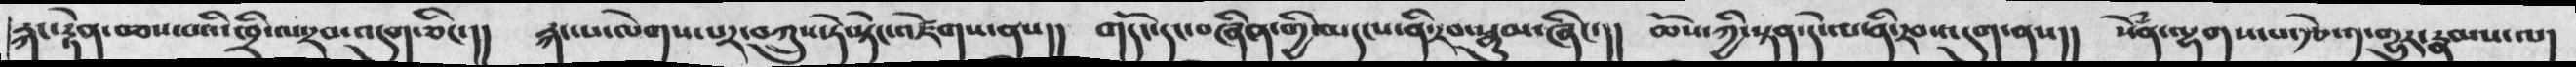རྐང་རྟེན་བཅས་པའི་ཁྲི་ལ་རབ་འདུག་ཅིང་།།   རྐང་པ་ལེགས་པར་བཀྲུས་ཏེ་སྟེང་འཛེགས་ནས།།  གདོང་དང་བཞིན་གྱི་མདང་ནི་རབ་སྣུམ་ཞིང་།།   ཆོས་ཀྱི་སྟན་དེ་ལ་ནི་རབས་དུག་ནས།།  སེྃན་ལྷགས་པ་རྩེ་༡་གྱུར་རྣམས་ལ།
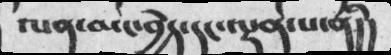ལན་མང་བྱེད་དང་ལྡན་པ་ནི།།
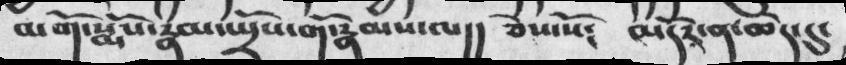མགོ་སྨོས་རྣམ་སྤྲོས་གོ་རྣམས་ལ།། ཅེས་སོ༴ མདོར་ན་ཆེད་དུ་
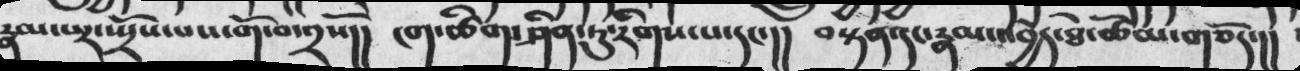རྣམ་པར་སྤྲོས་པས་གོ་བ་༢སོ།། ངག་ཚིག་ཤིན་ཏུ་རིགས་པ་དང་།། བསྟན་དང་རྣམ་འབྱེད་ཐེ་ཚོམ་གཅོད་།།
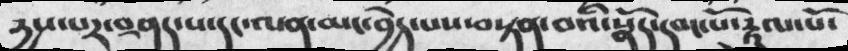དྱསས་པར་བཤད་པ་དང་ལན་མང་བྱེད་པས་བསྟན་བའི་སྣོད་དབང་པོ་རྟུལ་པོ་
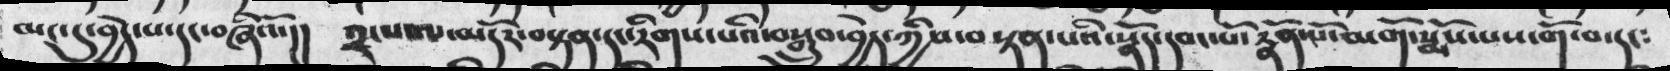མང་དུ་བྱེད་པ་དང་བཞིའོ་།། ༢་པ་ལ་མདོར་བསྟན་དང་རིགས་པའི་བསྒྲུབ་བྱེད་ཀྱིས་བསྟན་པའི་སྣོད་དབང་པོ་རྣོན་པོ་མགོ་སྨོས་པས་གོ་བ་དང༴
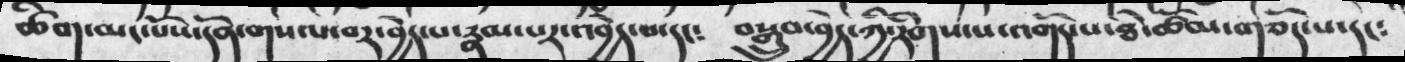ཚིག་མང་པོས་དོན་གསལ་བར་བྱེད་པ་རྣམ་པར་འབྱེད་པ་དང༴ བསྒྲུབ་བྱེད་ཀྱི་རིགས་པ་འགོད་པ་ཐེ་ཚོམ་གཅོད་པ་དང༴
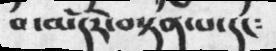བ་མདོར་བསྟན་པ་དང༴
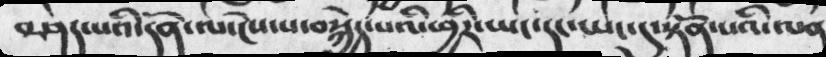བཤད་པའི་དོན་ལ་ངེས་པ་བསྐྱེད་པའི་ཕྱིར་ཡང་དང་ཡང་དུ་སྟོན་པའི་ལན
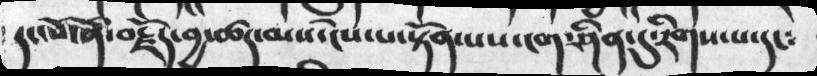དང་པོ་ནི་བརྗོད་བྱ་ཚད་མས་ངེས་པ་སྟོན་པས་ངག་ཤིན་དུ་རིགས་པ་དང༴
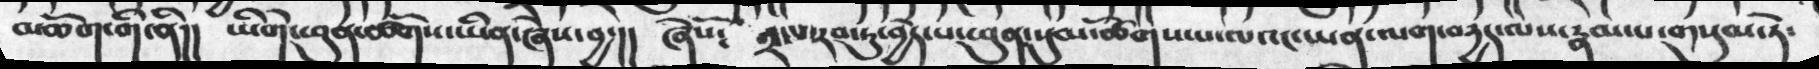མཆོག་གི་ནི།། ཡིགེ་ཕུན་ཚོགས་ཡིན་ཞེས་བྱ་།། ཞེསོ༴ ༢་པ་རབ་ཏུ་བྱེད་པ་ཕུན་སུམ་ཚོགས་པ་ལའང་ཡན་ལག་བདྱད་ལས་རྣམ་པ་གསུམ་ཏེ་
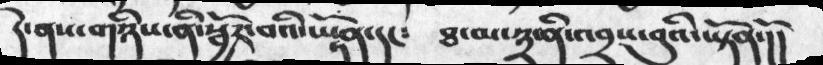དེ་ནས་གཉིས་ནི་སྦྱོར་བའི་ཡྟོན་དང༴ ཐ་མ་༣་ནི་འབྲས་བུའི་ཡྟོནོ་།།
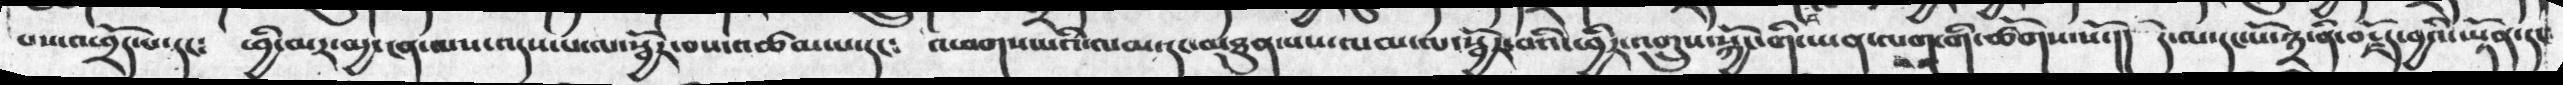པས་འཕྲོད་པ་དང༴  ཕྱི་མར་མྱ་ངན་ལས་འདས་པ་ལ་སྦྱོར་བས་འཚམ་པ་དང༴  འཕགས་པའི་ལམ་དང་མཐུན་པས་ལམ་ལ་སྦྱོར་བའི་ཕྱིར་འགྲུས་སྐྱོང་གི་ཡན་ལག་གི་ཚོགས་སོ་།།  དེ་མ་དང་པོ་༣་ནི་བརྗོད་བྱའི་ཡྟོན་དང་
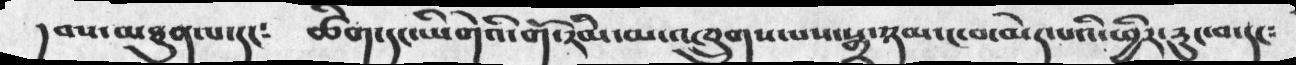།བས་མཐུན་པ་དང༴ ཚིག་དང་ཡིགེའི་གོ་རིམ་མ་འཁྲུགས་པས་སྒྲ་ཉམ་ང་བ་མེད་པའི་ཕྱིར་རུང་བ་དང༴
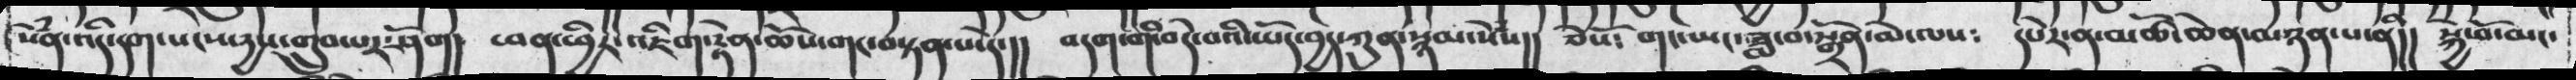སེཾན་འདི་དག་སངས་དྱས་གྲུབ་པར་ཤོག།  ཕན་ཕྱིར་འཇིག་རྟེན་ཆོས་གང་བསྟན་པ་དེ་།།  བདག་གི་བདེ་བའི་ཡོད་བྱད་ཀུན་སྙམ་སེཾས།། ཅེསོ༴  གང་ཡང་ཟླ་བ་སྒྲོན་མེ་ལས༴  དཔེར་ན་མཚོ་ཆེན་མཉན་པ་ནི།།  སྐྱེ་བོ་མང་
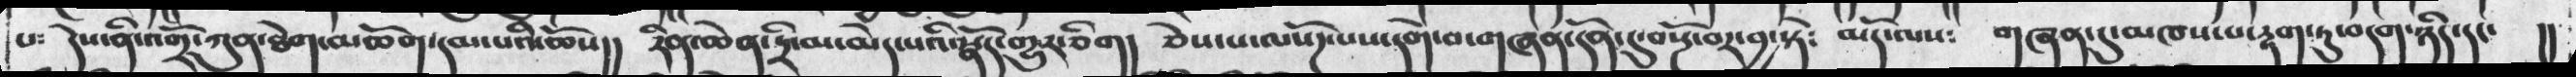པ༴ དེས་ནི་འགྲོ་ཀུན་ཐེག་མཆོག་དམ་པའི་ཆོས།། རིན་ཆེན་དྲི་མ་མེད་པའི་སྣོད་གྱུར་ཅིག། ཅེས་པ་ལསོཌ་པས་དགེ་བ་གཞན་དོན་དུ་བསྔོ་བར་བྱ་སྟེ༴ མདོ་ལས༴ གཞན་དུ་མཁས་པ་རྟག་ཏུ་བདག་ཉིད་དང་ །།
